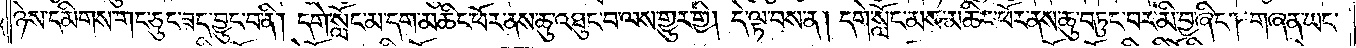ཉེས་དམིགས་གང་ཅུང་ཟད་བྱུང་བ་ནི། དགེ་སློང་མ་དག་མཆིང་ཕོར་ནས་ཆུ་འཐུང་བ་ལས་གྱུར་གྱི། དེ་ལྟ་བས་ན། དགེ་སློང་མས་མཆིང་ཕོར་ནས་ཆུ་བཏུང་བར་མི་བྱ་ཞིང༌། གཞན་ཡང་
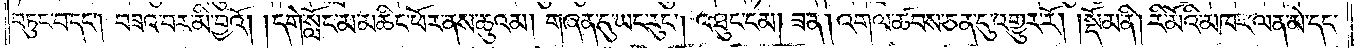བཏུང་བ་དང༌། བཟའ་བར་མི་བྱའོ། །དགེ་སློང་མ་མཆིང་ཕོར་ནས་ཆུའམ། གཞན་དུ་ཡང་རུང༌། འཐུང་ངམ། ཟ་ན། འགལ་ཚབས་ཅན་དུ་འགྱུར་རོ།    །སྡོམ་ནི། རི་མོའི་མཁར་ལན་མེ་དང་
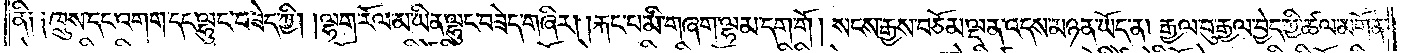ནི༑ ༑ཁྲུས་དང་འགག་དང་ལྷུང་བཟེད་ཀྱི། །ལྷག་རོལ་མ་ཡིན་ལྷུང་བཟེད་གཞིར། །རྐང་པ་མི་གཞག་ལྷམ་དག་གོ། སངས་རྒྱས་བཅོམ་ལྡན་འདས་མཉན་ཡོད་ན། རྒྱལ་བུ་རྒྱལ་བྱེད་ཀྱི་ཚལ་མགོན་
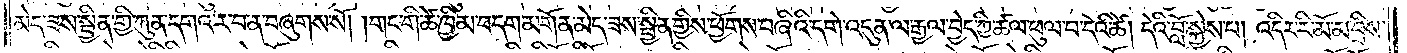མེད་ཟས་སྦྱིན་གྱི་ཀུན་དགའ་ར་བ་ན་བཞུགས་སོ། གང་གི་ཚེ་ཁྱིམ་བདག་མགོན་མེད་ཟས་སྦྱིན་གྱིས་ཕྱོགས་བཞིའི་དགེ་འདུན་ལ་རྒྱལ་བྱེད་ཀྱི་ཚལ་ཕུལ་བ་དེའི་ཚེ། དེའི་བློ་སྐྱེས་པ། འདིར་རི་མོ་མ་བྲིས་
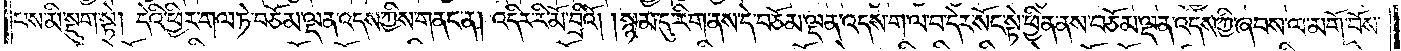པས་མི་སྡུག་སྟེ། དེའི་ཕྱིར་གལ་ཏེ་བཅོམ་ལྡན་འདས་ཀྱིས་གནང་ན། འདིར་རི་མོ་བྲིའོ། །སྙམ་དུ་རིག་ནས་དེ་བཅོམ་ལྡན་འདས་ག་ལ་བ་དེར་སོང་སྟེ་ཕྱིན་ནས་བཅོམ་ལྡན་འདས་ཀྱི་ཞབས་ལ་མགོ་བོས་
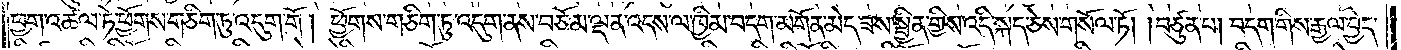ཕྱག་འཚལ་ཏེ་ཕྱོགས་གཅིག་ཏུ་འདུག་གོ། །ཕྱོགས་གཅིག་ཏུ་འདུག་ནས་བཅོམ་ལྡན་འདས་ལ་ཁྱིམ་བདག་མགོན་མེད་ཟས་སྦྱིན་གྱིས་འདི་སྐད་ཅེས་གསོལ་ཏོ། །བཙུན་པ། བདག་གིས་རྒྱལ་བྱེད་
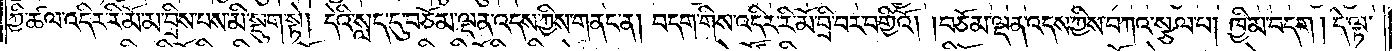ཀྱི་ཚལ་འདིར་རི་མོ་མ་བྲིས་པས་མི་སྡུག་སྟེ། དེའི་སླད་དུ་བཅོམ་ལྡན་འདས་ཀྱིས་གནང་ན། བདག་གིས་འདིར་རི་མོ་བྲི་བར་བགྱིའོ། །བཅོམ་ལྡན་འདས་ཀྱིས་བཀའ་སྩལ་པ། ཁྱིམ་བདག། དེ་ལྟ་
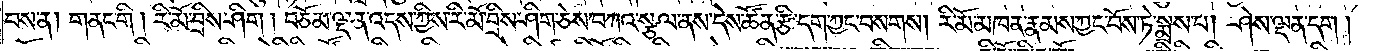བས་ན། གནང་གི། རི་མོ་བྲིས་ཤིག། བཅོམ་ལྡན་འདས་ཀྱིས་རི་མོ་བྲིས་ཤིག་ཅེས་བཀའ་སྩལ་ནས་དེས་ཚོན་རྩི་དག་ཀྱང་བསགས། རི་མོ་མཁན་རྣམས་ཀྱང་བོས་ཏེ་སྨྲས་པ། ཤེས་ལྡན་དག།
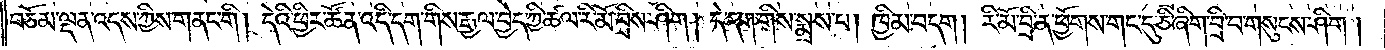བཅོམ་ལྡན་འདས་ཀྱིས་གནང་གི། དེའི་ཕྱིར་ཚོན་འདི་དག་གིས་རྒྱལ་བྱེད་ཀྱི་ཚལ་རི་མོ་བྲིས་ཤིག། དེ་དག་གིས་སྨྲས་པ། ཁྱིམ་བདག། རི་མོ་བྲི་ན་ཕྱོགས་གང་དུ་ཅི་ཞིག་བྲི་བ་གསུངས་ཤིག།
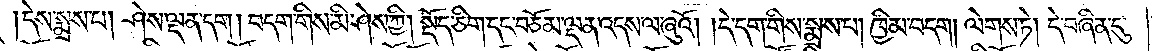དེས་སྨྲས་པ། ཤེས་ལྡན་དག། བདག་གིས་མི་ཤེས་ཀྱི། སྡོད་ཅིག་དང་བཅོམ་ལྡན་འདས་ལ་ཞུའོ། །དེ་དག་གིས་སྨྲས་པ། ཁྱིམ་བདག། ལེགས་ཏེ། དེ་བཞིན་དུ་
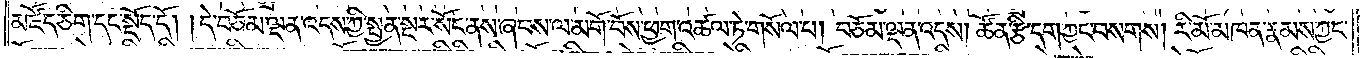མཛོད་ཅིག་དང་སྡོད་དོ། །དེ་བཅོམ་ལྡན་འདས་ཀྱི་སྤྱན་སྔར་སོང་ནས་ཞབས་ལ་མགོ་བོས་ཕྱག་འཚལ་ཏེ་གསོལ་པ། བཅོམ་ལྡན་འདས། ཚོན་རྩི་དག་ཀྱང་བསགས། རི་མོ་མཁན་རྣམས་ཀྱང་
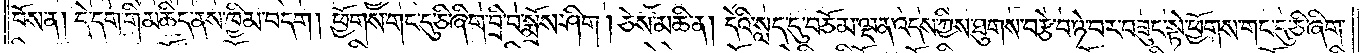བོས་ན། དེ་དག་གི་མཆིད་ནས་ཁྱིམ་བདག། ཕྱོགས་གང་དུ་ཅི་ཞིག་བྲི་བ་སྨྲོས་ཤིག། ཅེས་མཆི་ན། དེའི་སླད་དུ་བཅོམ་ལྡན་འདས་ཀྱིས་ཐུགས་བརྩེ་བ་ཉེ་བར་བཟུང་སྟེ་ཕྱོགས་གང་དུ་ཅི་ཞིག་
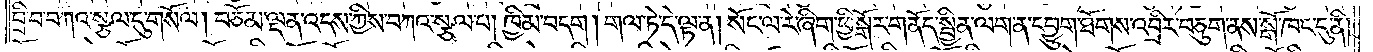བྲི་བ་བཀའ་སྩལ་དུ་གསོལ། བཅོམ་ལྡན་འདས་ཀྱིས་བཀའ་སྩལ་པ། ཁྱིམ་བདག། གལ་ཏེ་དེ་ལྟ་ན། སོང་ལ་རེ་ཞིག་ཕྱི་སྒོར་གནོད་སྦྱིན་ལག་ན་དབྱུག་ཐོགས་འབྲིར་བཅུག་ནས་སྒོ་ཁང་དུ་ནི།
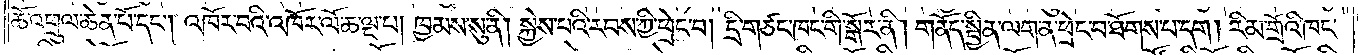ཆོ་འཕྲུལ་ཆེན་པོ་དང༌། འཁོར་བའི་འཁོར་ལོ་ཆ་ལྔ་པ། ཁྱམས་སུ་ནི། སྐྱེས་པའི་རབས་ཀྱི་ཕྲེང་བ། དྲི་གཙང་ཁང་གི་སྒོར་ནི། གནོད་སྦྱིན་ལག་ན་ཕྲེང་བ་ཐོགས་པ་དག། རིམ་གྲོའི་ཁང་
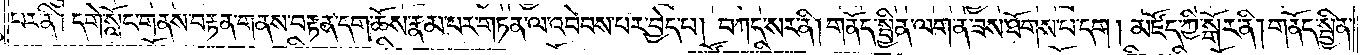པར་ནི། དགེ་སློང་གནས་བརྟན་གནས་བརྟན་དག་ཆོས་རྣམ་པར་གཏན་ལ་འབེབས་པར་བྱེད་པ། བཀད་སར་ནི། གནོད་སྦྱིན་ལག་ན་ཟས་ཐོགས་པ་དག། མཛོད་ཀྱི་སྒོར་ནི། གནོད་སྦྱིན་
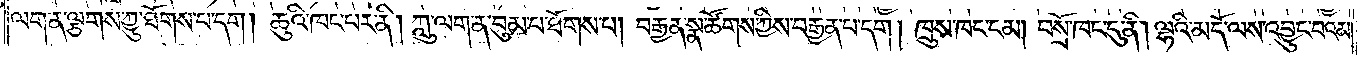ལག་ན་ལྕགས་ཀྱུ་ཐོགས་པ་དག། ཆུའི་ཁང་པར་ནི། ཀླུ་ལག་ན་བུམ་པ་ཐོགས་པ། བརྒྱན་སྣ་ཚོགས་ཀྱིས་བརྒྱན་པ་དག། ཁྲུས་ཁང་ངམ། བསྲོ་ཁང་དུ་ནི། ལྷའི་མདོ་ལས་འབྱུང་བའམ།
